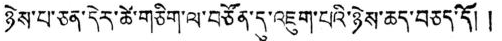ཉེས་པ་ཅན་དེར་ཚེ་གཅིག་ལ་བཙོན་དུ་འཇུག་པའི་ཉེས་ཆད་བཅད་དོ། །
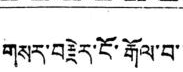གསར་བརྗེར་ངོ་རྒོལ་བ་་
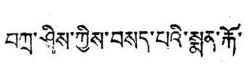བཀྲ་ཤིས་ཀྱིས་བསད་པའི་སྨན་རྒོ་
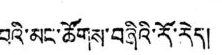བའི་མང་ཚོགས་བཞིའི་རོ་རེད།
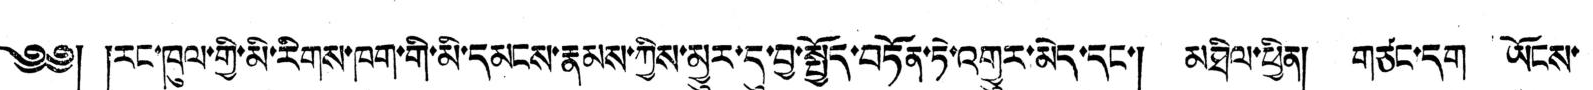༄༅། །རང་ཁུལ་གྱི་མི་རིགས་ཁག་གི་མི་དམངས་རྣམས་ཀྱིས་མྱུར་དུ་བྱ་སྤྱོད་བཏོན་ཏེ་འགྱུར་མེད་དང་། མཐིལ་ཕྱིན། གཙང་དག ཡོངས་
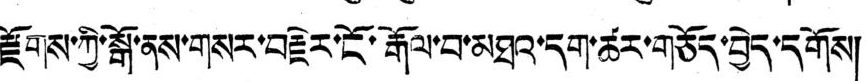རྫོགས་ཀྱི་སྒོ་ནས་གསར་བརྗེར་ངོ་རྒོལ་བ་མཐའ་དག་ཚར་གཅོད་བྱེད་དགོས།
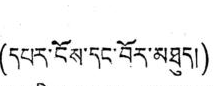(དཔར་ངོས་དང་བོར་མཐུད།)
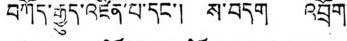བཀོད་རྒྱུད་འཛིན་པ་དང་། ས་བདག འབྲོག་
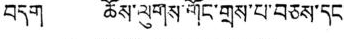བདག ཆོས་ལུགས་གོང་གྲས་པ་བཅས་དང་
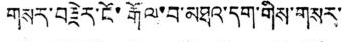གསར་བརྗེར་ངོ་རྒོལ་བ་མཐའ་དག་གིས་གསར་་
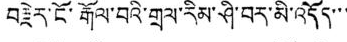བརྗེར་ངོ་རྒོལ་བའི་གྲལ་རིམ་ཤི་བར་མི་འདོད་་་
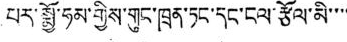པར་སྨྱོ་ཧམ་གྱིས་གུང་ཁྲན་ཏང་དང་ངལ་རྩོལ་མི་་་་
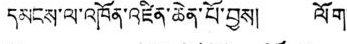དམངས་ལ་འཁོན་འཛིན་ཆེན་པོ་བྱས། ལོག་
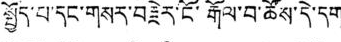སྤྱོད་པ་དང་གསར་བརྗེར་ངོ་རྒོལ་བ་ཚོས་དེ་དག་
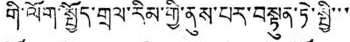གི་ལོག་སྤྱོད་གྲལ་རིམ་གྱི་ནུས་པར་བསྟུན་ཏེ་སྤྱི་་་
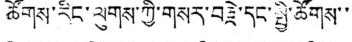ཚོགས་རིང་ལུགས་ཀྱི་གསར་བརྗེ་དང་སྤྱི་ཚོགས་་
